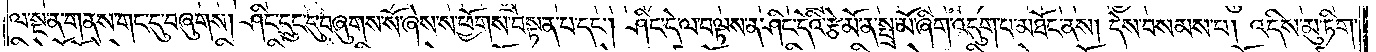ལ་སྔ་ན་གནས་གང་དུ་བཞུགས། ཤིང་དྲུང་དུ་བཞུགས་སོ་ཞེས་ས་ཕྱོགས་བསྟན་པ་དང༌། ཤིང་དེ་ལ་བལྟས་ན་ཤིང་དེའི་རྩེ་མོ་ན་སྤྲ་མོ་ཞིག་འདུག་པ་མཐོང་ནས། དེས་བསམས་པ། འདིས་མུ་ཏིག་
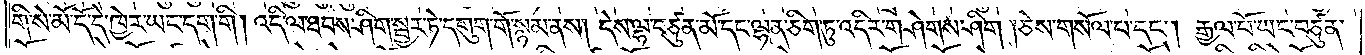གི་སེ་མོ་དོ་དེ་ཁྱེར་ཡང་དག་གི། འདི་ལ་ཐབས་ཤིག་སྦྱར་ཏེ་དགུག་གོ་སྙམ་ནས། དེས་ལྷ་བཙུན་མོ་དང་ལྷན་ཅིག་ཏུ་འདིར་གཤེགས་ཤིག །ཅེས་གསོལ་པ་དང༌། རྒྱལ་པོ་ཡང་བཙུན་
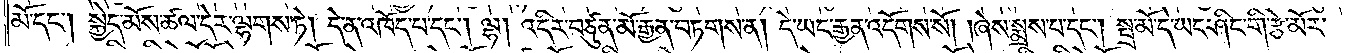མོ་དང༌། སྐྱེད་མོས་ཚལ་དེར་ལྷགས་ཏེ། དེ་ན་འཁོད་པ་དང༌། ལྷ། འདིར་བཙུན་མོ་རྒྱན་བཏགས་ན། དེ་ཡང་རྒྱན་འདོགས་སོ། །ཞེས་སྨྲས་པ་དང༌། སྤྲ་མོ་དེ་ཡང་ཤིང་གི་རྩེ་མོར་
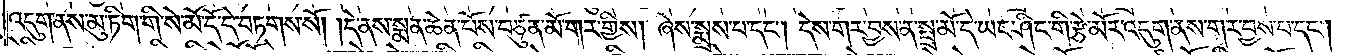འདུག་ནས་མུ་ཏིག་གི་སེ་མོ་དོ་དེ་བཏགས་སོ། །དེ་ནས་སྨན་ཆེན་པོས་བཙུན་མོ་གར་གྱིས། ཞེས་སྨྲས་པ་དང༌། དེས་གར་བྱས་ན་སྤྲ་མོ་དེ་ཡང་ཤིང་གི་རྩེ་མོར་འདུག་ནས་གར་བྱས་པ་དང༌།
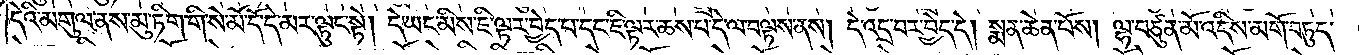དེའི་མགུལ་ནས་མུ་ཏིག་གི་སེ་མོ་དོ་དེ་མར་ལྟུང་སྟེ། དེ་ཡང་མིས་ཇི་ལྟར་བྱེད་པ་དང་ཇི་ལྟར་ཆས་པ་དེ་ལ་བལྟས་ནས། དེ་འདྲ་བར་བྱེད་དེ། སྨན་ཆེན་པོས། ལྷ་བཙུན་མོ་འདིས་མགོ་བཏུད་
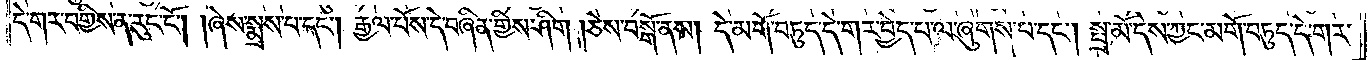དེ་གར་བགྱིས་ན་རུང་ངོ༌། །ཞེས་སྨྲས་པ་དང༌། རྒྱལ་པོས་དེ་བཞིན་གྱིས་ཤིག །ཅེས་བསྒོ་ནས། དེ་མགོ་བཏུད་དེ་གར་བྱེད་པ་ལ་ཞུགས་པ་དང༌། སྤྲ་མོ་དེས་ཀྱང་མགོ་བཏུད་དེ་གར་
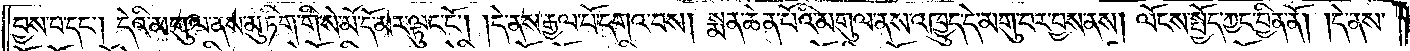བྱས་པ་དང༌། དེའི་མགུལ་ནས་མུ་ཏིག་གི་སེ་མོ་དོ་མར་ལྟུང་ངོ༌། །དེ་ནས་རྒྱལ་པོ་དགའ་བས། སྨན་ཆེན་པོའི་མགུལ་ནས་འཁྱུད་དེ་མགུ་བར་བྱས་ནས། ལོངས་སྤྱོད་ཀྱང་བྱིན་ནོ། །དེ་ནས་
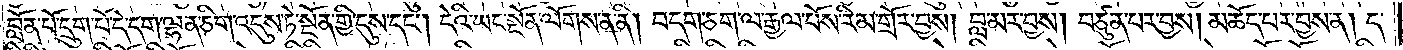བློན་པོ་དྲུག་པོ་དེ་དག་ལྷན་ཅིག་ཏུ་འདུས་ཏེ་སྔོན་གྱི་དུས་དང༌། དེའི་ཡང་སྔོན་ལོགས་ན་ནི། བདག་ཅག་ལ་རྒྱལ་པོས་རིམ་གྲོར་བྱས། བླ་མར་བྱས། བཙུན་པར་བྱས། མཆོད་པར་བྱས་ན། ད་
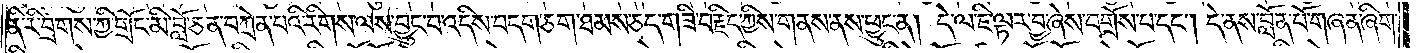ནི་རི་བྲགས་ཀྱི་གྲོང་མི་བློ་ཅན་བཀྲེན་པའི་རིགས་ལས་བྱུང་བ་འདིས་བདག་ཅག་ཐམས་ཅད་གཟི་བརྗིད་ཀྱིས་གནས་ནས་ཕྱུང་ན། དེ་ལ་ཇི་ལྟར་བྱ་ཞེས་བགྲོས་པ་དང༌། དེ་ནས་བློན་པོ་གཞན་ཞིག་
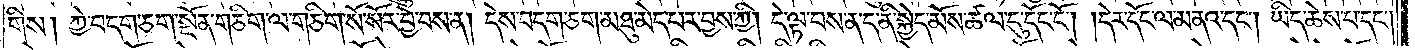གིས། ཀྱེ་བདག་ཅག་སྔོན་གཅིག་ལ་གཅིག་སོ་སོར་བྱེ་བས་ན། དེས་བདག་ཅག་མཐུ་མེད་པར་བྱས་ཀྱི། དེ་ལྟ་བས་ན་ད་ནི་སྐྱེད་མོས་ཚལ་དུ་དོང་ངོ༌། །དེར་དོང་ལ་མནའ་དང༌། ཡིད་ཆེས་པ་དང༌།
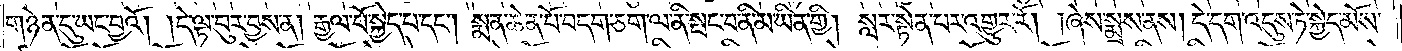གཉེན་དུ་ཡང་བྱའོ། །དེ་ལྟ་བུར་བྱས་ན། རྒྱལ་པོ་སྐྱེད་པ་དང༌། སྨན་ཆེན་པོ་བདག་ཅག་ལ་ནི་སྤང་བ་ནི་མ་ཡིན་གྱི། སླར་སྟེན་པར་འགྱུར་རོ། །ཞེས་སྨྲས་ན། དེ་དག་འདུས་ཏེ་སྐྱེད་མོས་
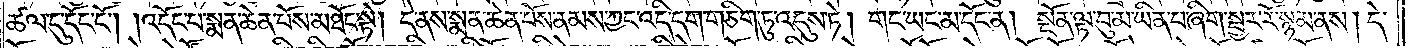ཚལ་དུ་དོང་ངོ༌། །འདོང་པ་སྨན་ཆེན་པོས་མཐོང་སྟེ། དེ་ནས་སྨན་ཆེན་པོས་ནམས་ཀྱང་འདི་དག་གཅིག་ཏུ་འདུས་ཏེ། གང་ཡང་མ་དོང་ན། སྔོན་ལྟ་བུ་མ་ཡིན་པ་ཞིག་སྦྱར་རོ་སྙམ་ནས། དེ་
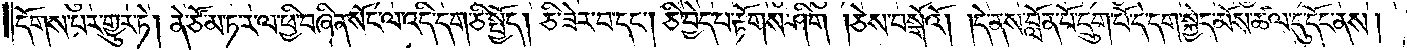དོགས་པར་གྱུར་ཏེ། ནེ་ཙོ་མ་ཏ་ར་ལ་ཕྱི་བཞིན་སོང་ལ་འདི་དག་ཅི་སྤྱོད། ཅི་ཟེར་བ་དང༌། ཅི་བྱེད་པ་རྟོགས་ཤིག །ཅེས་བསྒོའོ། །དེ་ནས་བློན་པོ་དྲུག་པོ་དེ་དག་སྐྱེད་མོས་ཚལ་དུ་དོང་ནས།
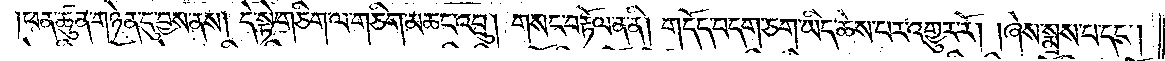ཕན་ཚུན་གཉེན་དུ་བྱས་ནས། དེ་སྟེ་གཅིག་ལ་གཅིག་མཚང་འབྲུ། གསང་བརྟོལ་ན་ནི། གདོད་བདག་ཅག་ཡིད་ཆེས་པར་འགྱུར་རོ། །ཞེས་སྨྲས་པ་དང༌།
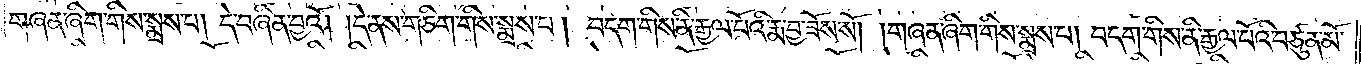གཞན་ཞིག་གིས་སྨྲས་པ། དེ་བཞིན་བྱའོ། །དེ་ནས་གཅིག་གིས་སྨྲས་པ། བདག་གིས་ནི་རྒྱལ་པོའི་རྨ་བྱ་ཟོས་སོ། །གཞན་ཞིག་གིས་སྨྲས་པ། བདག་གིས་ནི་རྒྱལ་པོའི་བཙུན་མོ་
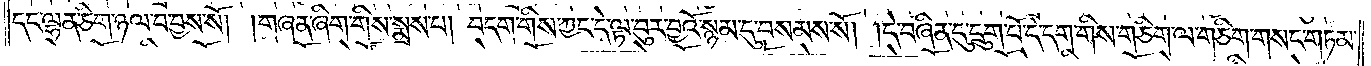དང་ལྷན་ཅིག་ཉལ་བ་བྱས་སོ། །གཞན་ཞིག་གིས་སྨྲས་པ། བདག་གིས་ཀྱང་དེ་ལྟ་བུར་བྱའོ་སྙམ་དུ་བསམས་སོ། །དེ་བཞིན་དུ་དྲུག་པོ་དེ་དག་གིས་གཅིག་ལ་གཅིག་གསང་གཏམ་
